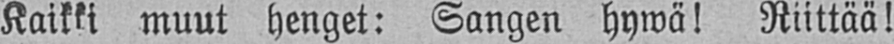Kaikki muut henget: Sangen hywä! Riittää!
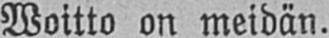Woitto on meidän.
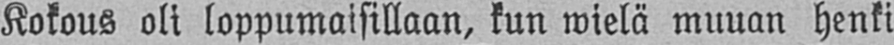Kokous oli loppumaisillaan, kun welä muuan henki
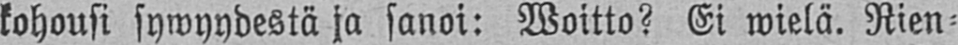kohousi sywyydestä ja sanoi: Woitto? Ei wielä. Rien-
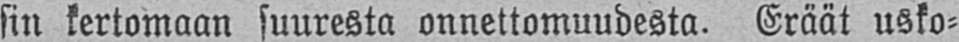sin kertomaan suuresta onnettomuudesta. Eräät usko-
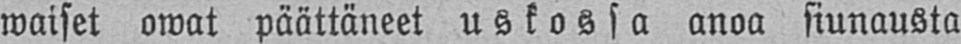waiset owat päättäneet uskossa anoa siunausta
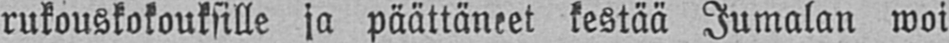rukouskokouksille ja päättäneet kestää Jumalan woi
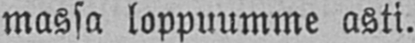massa loppuumme asti.
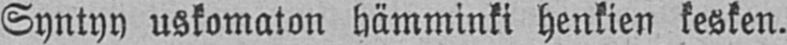Syntyy uskomaton hämminki henkien kesken.
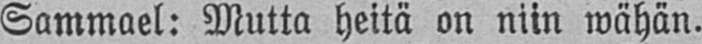Sammael: Mutta heitä on niin wähän.
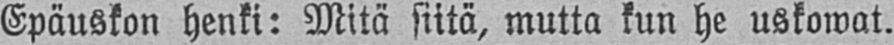Epäuskon henki: Mitä siitä, mutta kun he uskowat.
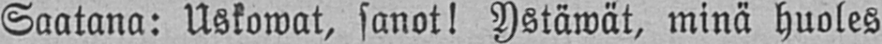Saatana: Uskowat, sanot! Ystäwät, minä huoles-
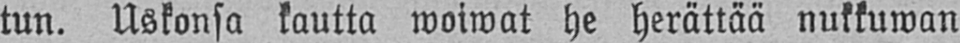tun. Uskonsa kautta woiwat he herättää nukkuwan
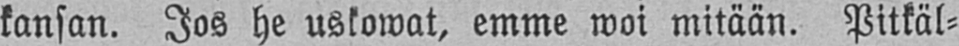kansan. Jos he uskowat, emme woi mitään. Pitkäl-
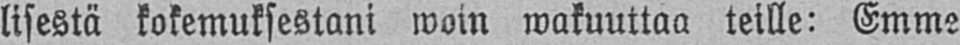lisestä kokemuksestani woin wakuuttaa teille: Emme
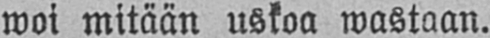woi mitään uskoa wastaan.
